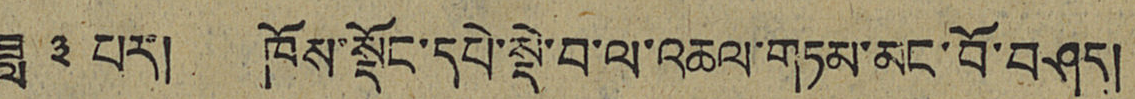ཟླ ༣ པར། ཁོས་སྡོང་དཔེ་སྡེ་བ་ལ་འཆལ་གཏམ་མང་བོ་བཤད།
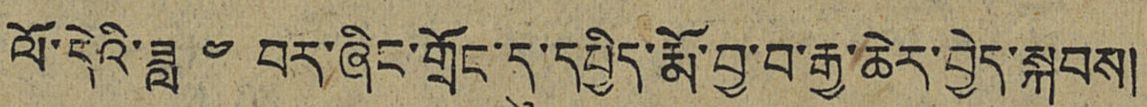ལོ་དེའི་ཟླ ༤ བར་ཞིང་གྲོང་དུ་དཔྱིད་རྨོ་བྱ་བ་རྒྱ་ཆེར་བྱེད་སྐབས།
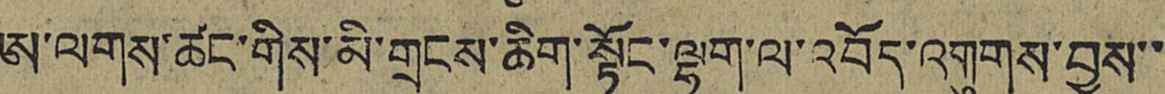ཨ་ལགས་ཚང་གིས་མི་གྲངས་ཆིག་སྟོང་ལྷག་ལ་འབོད་འགུགས་བྱས་་
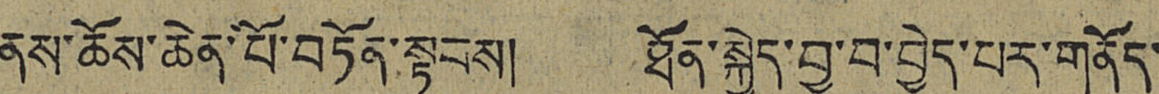ནས་ཆོས་ཆེན་པོ་བཏོན་སྟབས། ཐོན་སྐྱེད་བྱ་བ་བྱེད་པར་གནོད་
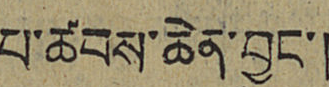པ་ཚབས་ཆེན་བྱུང་།
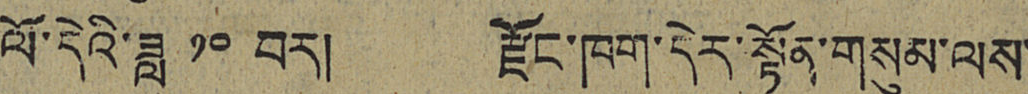ལོ་དེའི་ཟླ ༡༠ བར། རྫོང་ཁག་དེར་སྟོན་གསུམ་ལས་
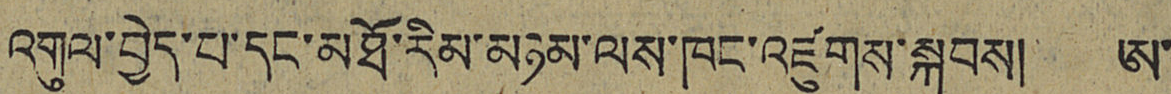འགུལ་བྱེད་པ་དང་མཐོ་རིམ་མཉམ་ལས་ཁང་འཛུགས་སྐབས། ཨ་
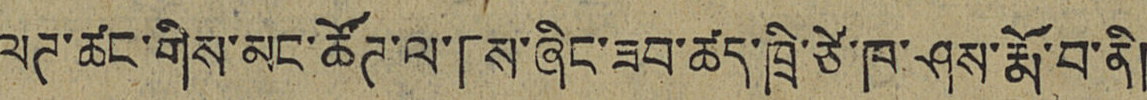ལཊ་ཚང་གིས་མང་ཚོཊ་ལ་「ས་ཞིང་ཟབ་ཚད་ཁྲི་ཙེ་ཁ་ཤས་རྨོ་བ་ནི།
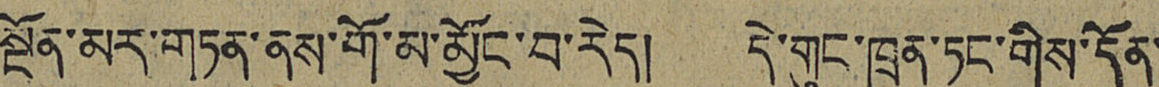སྔོན་མར་གཏན་ནས་གོ་མ་མྱོང་བ་རེད། དེ་གུང་ཁྲན་ཏང་གིས་དོན་
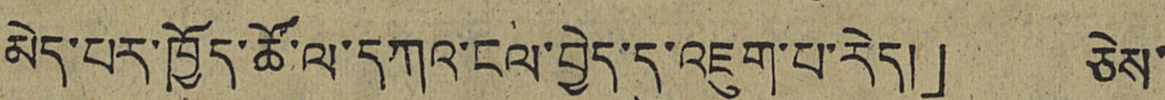མེད་པར་ཁྱོད་ཚོ་ལ་དཀའ་ངལ་བྱེད་དུ་འཇུག་པ་རེད།」 ཅེས་
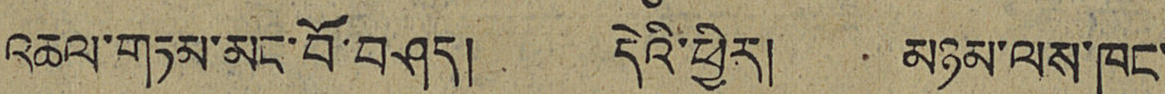འཆལ་གཏམ་མང་བོ་བཤད། དེའི་ཕྱིར། མཉམ་ལས་ཁང་
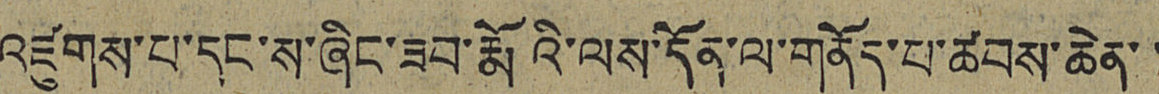འཛུགས་པ་དང་ས་ཞིང་ཟབ་རྨོའི་ལས་དོན་ལ་གནོད་པ་ཚབས་ཆེན་་
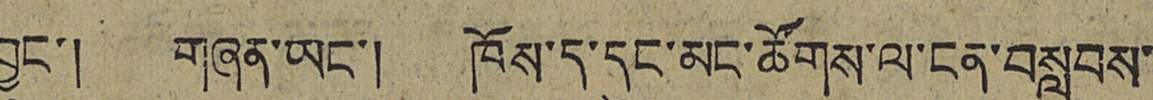བྱུང་། གཞན་ཡང་། ཁོས་ད་དུང་མང་ཚོགས་ལ་ངན་བསླབས་
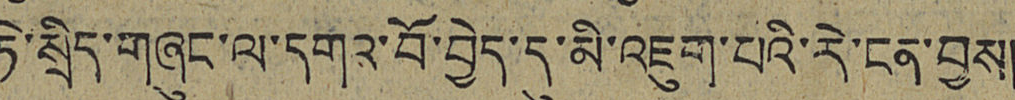ཏེ་སྲིད་གཞུང་ལ་དགའ་བོ་བྱེད་དུ་མི་འཇུག་པའི་རེ་ངན་བྱས།
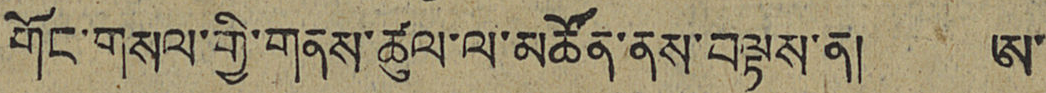གོང་གསལ་གྱི་གནས་ཚུལ་ལ་མཚོན་ནས་བལྟས་ན། ཨ་
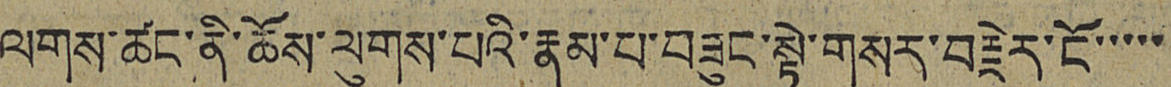ལགས་ཚང་ནི་ཆོས་ལུགས་པའི་རྣམ་པ་བཟུང་སྟེ་གསར་བརྗེར་ངོ་་་་་
